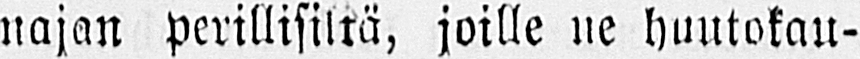najan perillisiltä, joille ne huutokau-
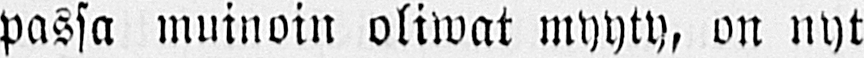passa muinoin oliwat myyty, on nyt
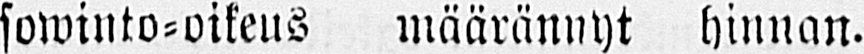sowinto-oikeus määrännyt hinnan.
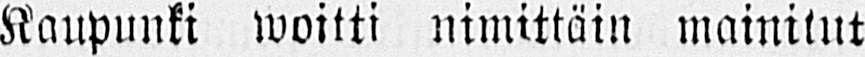Kaupunki woitti nimittäin mainitut
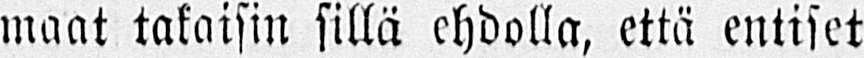maat takaisin sillä ehdolla, että entiset
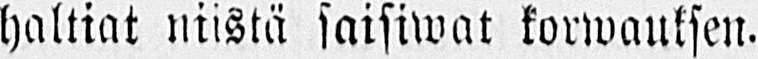haltiat niistä saisiwat korwauksen.
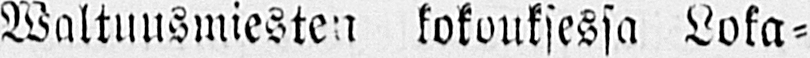Waltuusmiesten kokouksessa loka-
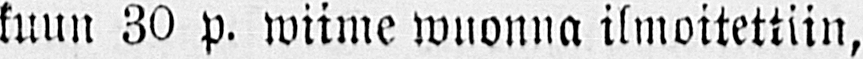kuun 30 p. wiime wuonna ilmoitettiin,
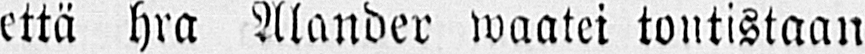että hra Alander waatei tontistaan
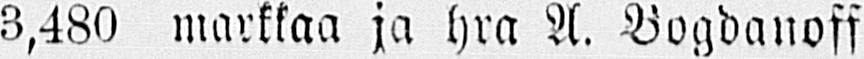3,480 markkaa ja hra A. Bogdanoff
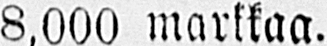8,000 markkaa.
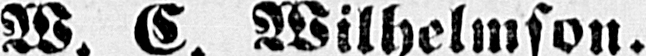W.C Wilhelmson.
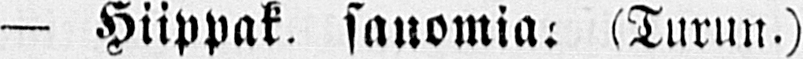— Hiippak. sanomia: (Turun )
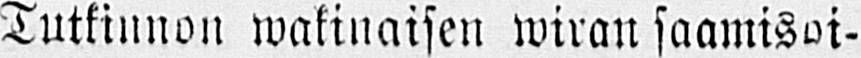Tutkinnon wakinaisen wiran saamisoi-
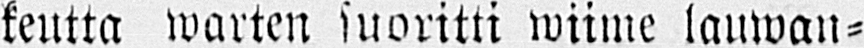keutta warten suoritti wiime lauwan-
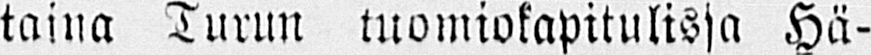taina Turun tuomiokapitulissa Hä-
